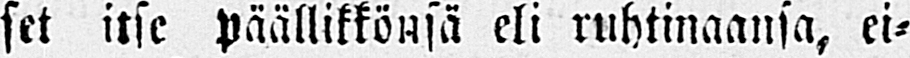set itse päällikkönsä eli ruhtinaansa, ei-
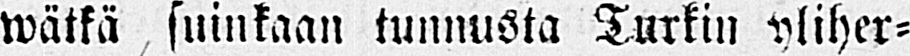wätkä suinkaan tunnusta Turkin yliher-
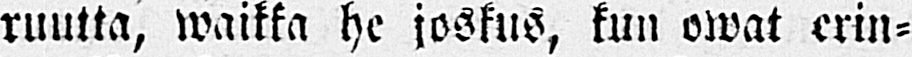ruutta, waikka he joskus, kun owat erin-
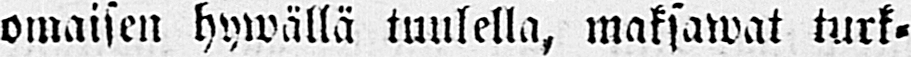omaisen hywällä tuulella, maksawat turk-
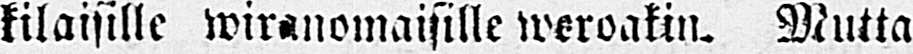tilaisille wiranomaisille weroakin. Mutta
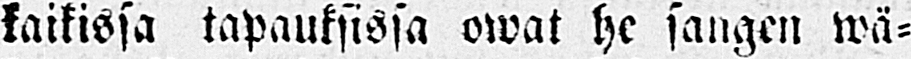kaikissa tapauksissa owat he sangen wä-
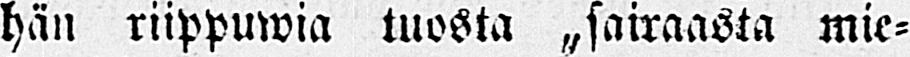hän riippuwia tuosta „sairaasta mie-
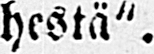hestä".
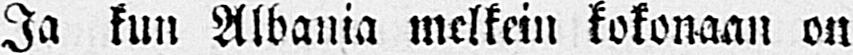Ja kun Albania melkein kokonaan on
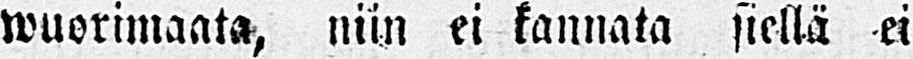wuorimaata, niin ei kannata siellä ei
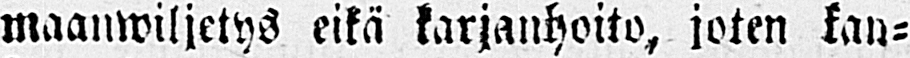maanwiljetys eikä karjanhoito, joten kan-
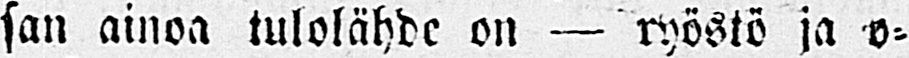san ainoa tulolähde on — ryöstö ja o-
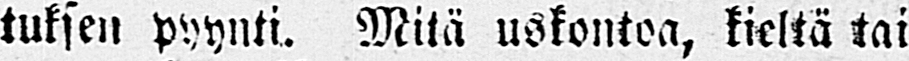tuksen pyynti. Mitä uskontoa, kieliä tai
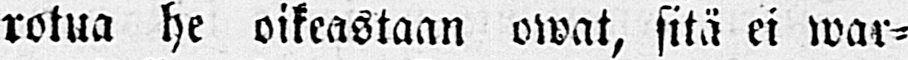rotua he oikeastaan owat, sitä ei war-
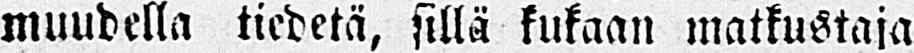muudella tiedetä, sillä kukaan matkustaja
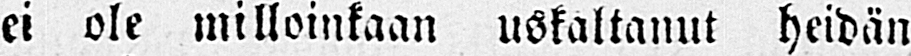ei ole milloinkaan uskaltanut heidän
